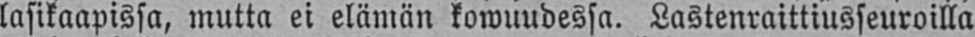lasikaapissa, mutta ei elämän kowuudessa. Lastenraittiusseuroilla
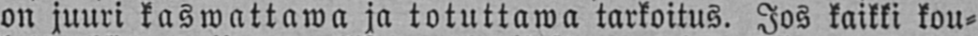on juuri kaswattawa ja totuttawa tarkoitus. Jos kaikki kou-
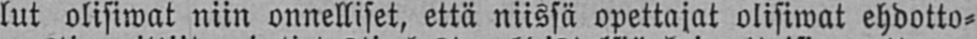lut olisiwat niin onnelliset, että niissä opettajat olisiwat ehdotto-
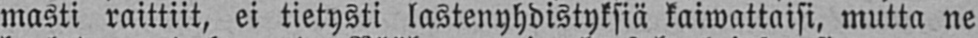masti raittiit, ei tietysti lastenyhdistyksiä kaiwattaisi, mutta ne
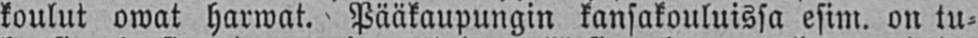koulut owat harwat. Pääkaupungin kansakouluissa esim. on tu-
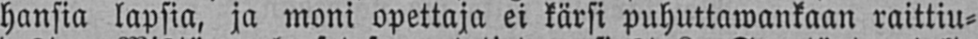hansia lapsia, ja moni opettaja ei kärsi puhuttawankaan raittiu-
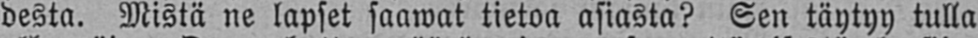desta. Mistä ne lapset saawat tietoa asiasta? Sen täytyy tulla
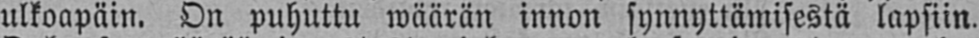ulkoapäin. On puhuttu wäärän innon synnyttämisestä lapsiin.
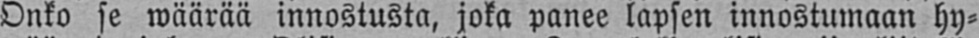Onko se wäärää innostusta, joka panee lapsen innostumaan hy-
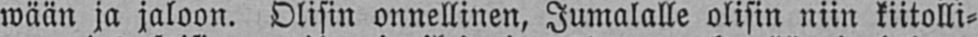wään ja jaloon. Olisin onnellinen, Jumalalle olisin niin kiitolli-
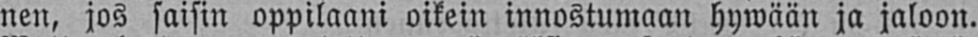nen, jos saisin oppilaani oikein innostumaan hywään ja jaloon.
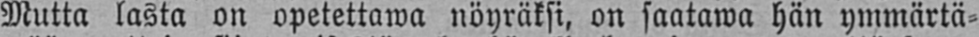Mutta lasta on opetettawa nöyräksi, on saatawa hän ymmärtä-
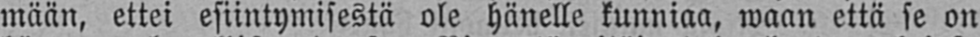mään, ettei esiintymisestä ole hänelle kunniaa, waan että se on
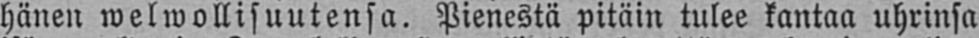hänen welwollisuutensa. Pienestä pitäin tulee kantaa uhrinsa
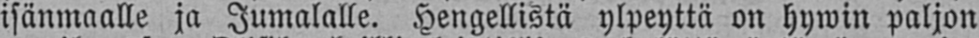isänmaalle ja Jumalalle. Hengellistä ylpeyttä on hywin paljon
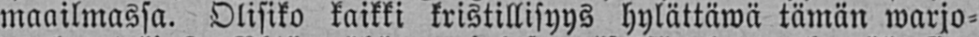maailmassa. Olisiko kaikki kristillisyys hylättäwä tämän warjo-
